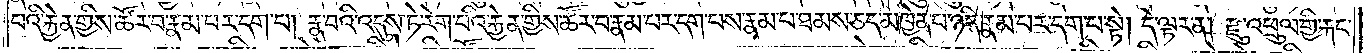པའི་རྐྱེན་གྱིས་ཚོར་བ་རྣམ་པར་དག་པ། རྣ་བའི་འདུས་ཏེ་རེག་པའི་རྐྱེན་གྱིས་ཚོར་བ་རྣམ་པར་དག་པས་རྣམ་པ་ཐམས་ཅད་མཁྱེན་པ་ཉིད་རྣམ་པར་དག་པ་སྟེ། དེ་ལྟར་ན། རྫུ་འཕྲུལ་གྱི་རྐང་
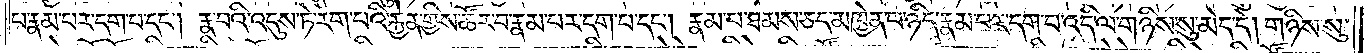པ་རྣམ་པར་དག་པ་དང༌། རྣ་བའི་འདུས་ཏེ་རེག་པའི་རྐྱེན་གྱིས་ཚོར་བ་རྣམ་པར་དག་པ་དང༌། རྣམ་པ་ཐམས་ཅད་མཁྱེན་པ་ཉིད་རྣམ་པར་དག་པ་འདི་ལ་གཉིས་སུ་མེད་དེ། གཉིས་སུ་
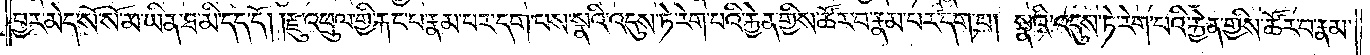བྱར་མེད་སོ་སོ་མ་ཡིན་ཐ་མི་དད་དོ། །རྫུ་འཕྲུལ་གྱི་རྐང་པ་རྣམ་པར་དག་པས་སྣའི་འདུས་ཏེ་རེག་པའི་རྐྱེན་གྱིས་ཚོར་བ་རྣམ་པར་དག་པ། སྣའི་འདུས་ཏེ་རེག་པའི་རྐྱེན་གྱིས་ཚོར་བ་རྣམ་
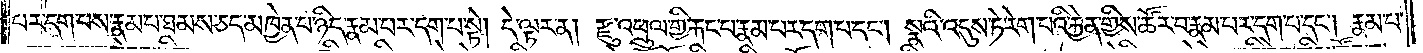པར་དག་པས་རྣམ་པ་ཐམས་ཅད་མཁྱེན་པ་ཉིད་རྣམ་པར་དག་པ་སྟེ། དེ་ལྟར་ན། རྫུ་འཕྲུལ་གྱི་རྐང་པ་རྣམ་པར་དག་པ་དང༌། སྣའི་འདུས་ཏེ་རེག་པའི་རྐྱེན་གྱིས་ཚོར་བ་རྣམ་པར་དག་པ་དང༌། རྣམ་པ་
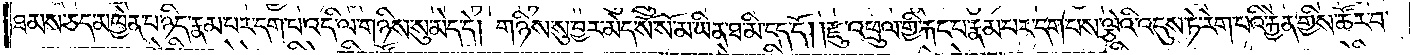ཐམས་ཅད་མཁྱེན་པ་ཉིད་རྣམ་པར་དག་པ་འདི་ལ་གཉིས་སུ་མེད་དེ། གཉིས་སུ་བྱར་མེད་སོ་སོ་མ་ཡིན་ཐ་མི་དད་དོ། །རྫུ་འཕྲུལ་གྱི་རྐང་པ་རྣམ་པར་དག་པས་ལྕེའི་འདུས་ཏེ་རེག་པའི་རྐྱེན་གྱིས་ཚོར་བ་
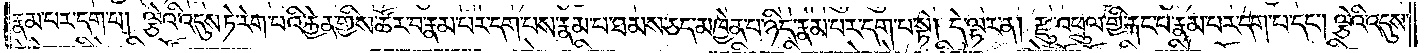རྣམ་པར་དག་པ། ལྕེའི་འདུས་ཏེ་རེག་པའི་རྐྱེན་གྱིས་ཚོར་བ་རྣམ་པར་དག་པས་རྣམ་པ་ཐམས་ཅད་མཁྱེན་པ་ཉིད་རྣམ་པར་དག་པ་སྟེ། དེ་ལྟར་ན། རྫུ་འཕྲུལ་གྱི་རྐང་པ་རྣམ་པར་དག་པ་དང༌། ལྕེའི་འདུས་
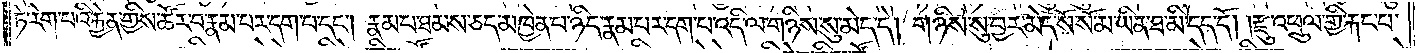ཏེ་རེག་པའི་རྐྱེན་གྱིས་ཚོར་བ་རྣམ་པར་དག་པ་དང༌། རྣམ་པ་ཐམས་ཅད་མཁྱེན་པ་ཉིད་རྣམ་པར་དག་པ་འདི་ལ་གཉིས་སུ་མེད་དེ། གཉིས་སུ་བྱར་མེད་སོ་སོ་མ་ཡིན་ཐ་མི་དད་དོ། །རྫུ་འཕྲུལ་གྱི་རྐང་པ་
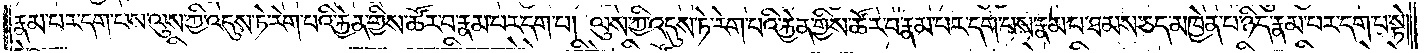རྣམ་པར་དག་པས་ལུས་ཀྱི་འདུས་ཏེ་རེག་པའི་རྐྱེན་གྱིས་ཚོར་བ་རྣམ་པར་དག་པ། ལུས་ཀྱི་འདུས་ཏེ་རེག་པའི་རྐྱེན་གྱིས་ཚོར་བ་རྣམ་པར་དག་པས་རྣམ་པ་ཐམས་ཅད་མཁྱེན་པ་ཉིད་རྣམ་པར་དག་པ་སྟེ།
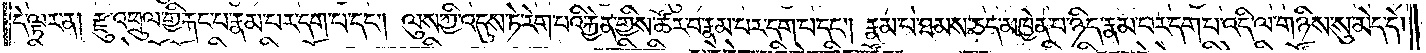དེ་ལྟར་ན། རྫུ་འཕྲུལ་གྱི་རྐང་པ་རྣམ་པར་དག་པ་དང༌། ལུས་ཀྱི་འདུས་ཏེ་རེག་པའི་རྐྱེན་གྱིས་ཚོར་བ་རྣམ་པར་དག་པ་དང༌། རྣམ་པ་ཐམས་ཅད་མཁྱེན་པ་ཉིད་རྣམ་པར་དག་པ་འདི་ལ་གཉིས་སུ་མེད་དེ།
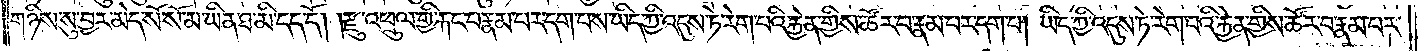གཉིས་སུ་བྱར་མེད་སོ་སོ་མ་ཡིན་ཐ་མི་དད་དོ། །རྫུ་འཕྲུལ་གྱི་རྐང་པ་རྣམ་པར་དག་པས་ཡིད་ཀྱི་འདུས་ཏེ་རེག་པའི་རྐྱེན་གྱིས་ཚོར་བ་རྣམ་པར་དག་པ། ཡིད་ཀྱི་འདུས་ཏེ་རེག་པའི་རྐྱེན་གྱིས་ཚོར་བ་རྣམ་པར་
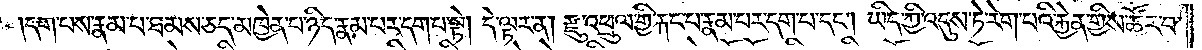དག་པས་རྣམ་པ་ཐམས་ཅད་མཁྱེན་པ་ཉིད་རྣམ་པར་དག་པ་སྟེ། དེ་ལྟར་ན། རྫུ་འཕྲུལ་གྱི་རྐང་པ་རྣམ་པར་དག་པ་དང༌། ཡིད་ཀྱི་འདུས་ཏེ་རེག་པའི་རྐྱེན་གྱིས་ཚོར་བ་
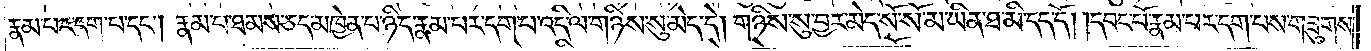རྣམ་པར་དག་པ་དང༌། རྣམ་པ་ཐམས་ཅད་མཁྱེན་པ་ཉིད་རྣམ་པར་དག་པ་འདི་ལ་གཉིས་སུ་མེད་དེ། གཉིས་སུ་བྱར་མེད་སོ་སོ་མ་ཡིན་ཐ་མི་དད་དོ། །དབང་པོ་རྣམ་པར་དག་པས་གཟུགས་
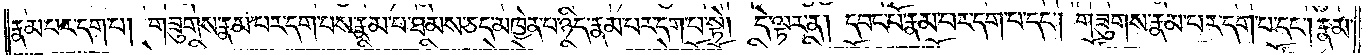རྣམ་པར་དག་པ། གཟུགས་རྣམ་པར་དག་པས་རྣམ་པ་ཐམས་ཅད་མཁྱེན་པ་ཉིད་རྣམ་པར་དག་པ་སྟེ། དེ་ལྟར་ན། དབང་པོ་རྣམ་པར་དག་པ་དང༌། གཟུགས་རྣམ་པར་དག་པ་དང༌། རྣམ་
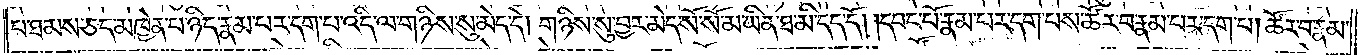པ་ཐམས་ཅད་མཁྱེན་པ་ཉིད་རྣམ་པར་དག་པ་འདི་ལ་གཉིས་སུ་མེད་དེ། གཉིས་སུ་བྱར་མེད་སོ་སོ་མ་ཡིན་ཐ་མི་དད་དོ། །དབང་པོ་རྣམ་པར་དག་པས་ཚོར་བ་རྣམ་པར་དག་པ། ཚོར་བ་རྣམ་
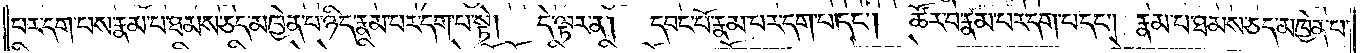པར་དག་པས་རྣམ་པ་ཐམས་ཅད་མཁྱེན་པ་ཉིད་རྣམ་པར་དག་པ་སྟེ། དེ་ལྟར་ན། དབང་པོ་རྣམ་པར་དག་པ་དང༌། ཚོར་བ་རྣམ་པར་དག་པ་དང༌། རྣམ་པ་ཐམས་ཅད་མཁྱེན་པ་
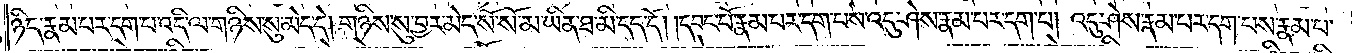ཉིད་རྣམ་པར་དག་པ་འདི་ལ་གཉིས་སུ་མེད་དེ། གཉིས་སུ་བྱར་མེད་སོ་སོ་མ་ཡིན་ཐ་མི་དད་དོ། །དབང་པོ་རྣམ་པར་དག་པས་འདུ་ཤེས་རྣམ་པར་དག་པ། འདུ་ཤེས་རྣམ་པར་དག་པས་རྣམ་པ་
